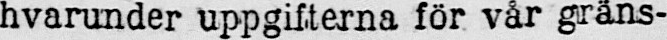hvarunder uppgifterna för vår gräns-
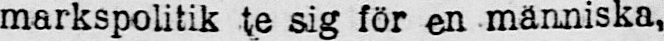markspolitik te sig för en människa,
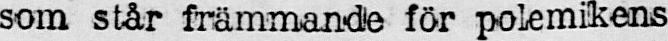som står främmande för polemikens
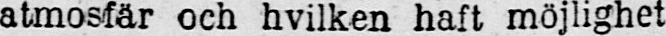atmosfär och hvilken haft möjlighet
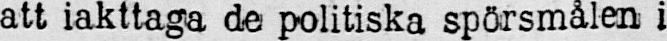att iakttaga de politiska spörsmålen i
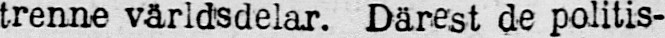trenne världsdelar. Därest de politis-
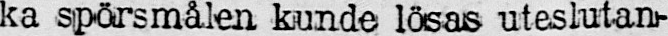ka spörsmålen kunde lösas uteslutan-
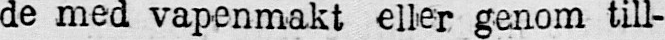de med vapenmakt eller genom till-
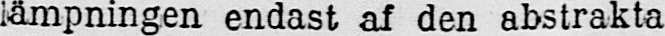lämpningen endast af den abstrakta
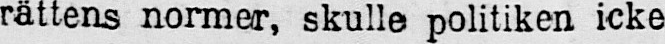rättens normer, skulle politiken icke
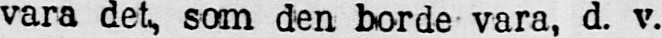vara det, som den borde vara, d. v.
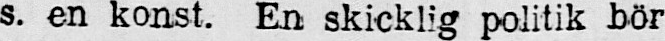s. en konst. En skicklig politik bör
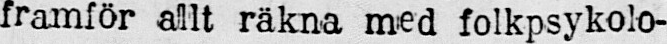framför allt räkna med folkpsykolo-
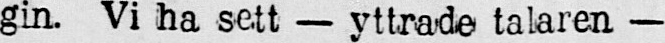gin. Vi ha sett — yttrade talaren —
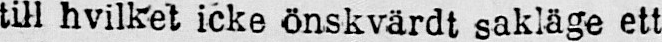till hvilket icke önskvärdt sakläge ett
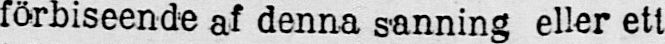förbiseende af denna sanning eller ett
